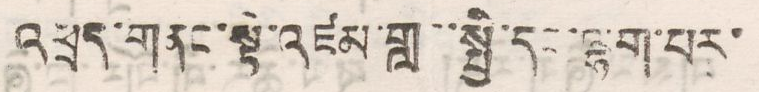འཕྲད་གནང་སྟེ་འཛམ་གླང་སྤྱི་དང་ལྷག་པར་
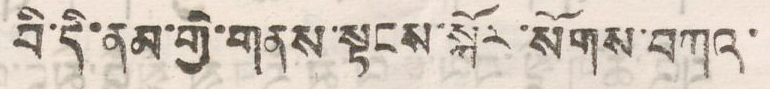བི་དི་ནམ་གྱི་གནས་སྟངས་སྐོར་སོགས་བཀའ་
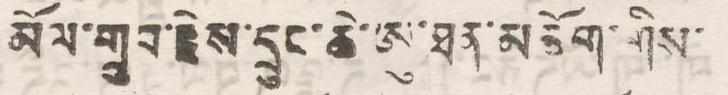མོལ་གྲུབ་རྗེས་དྲུང་ཆེ་ཨུ་ཐན་མཆོག་གིས་
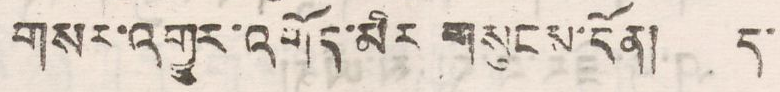གསར་འགྱུར་འགོད་མིར་གསུངས་དོན།   ད་
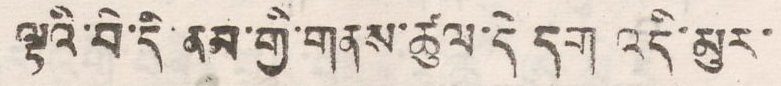ལྟའི་བི་དི་ནམ་གྱི་གནས་ཚུལ་དེ་དག འདི་མུར་
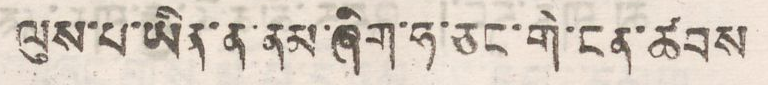ལུས་པ་ཡིན་ན་ནམ་ཞིག་ཧ་ཅང་གི་ངན་ཚབས
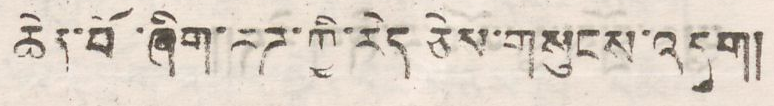ཆེན་པོ་ཞིག་རཌ་ཀྱི་རེད ཅེས་གསུངས་འདུག།
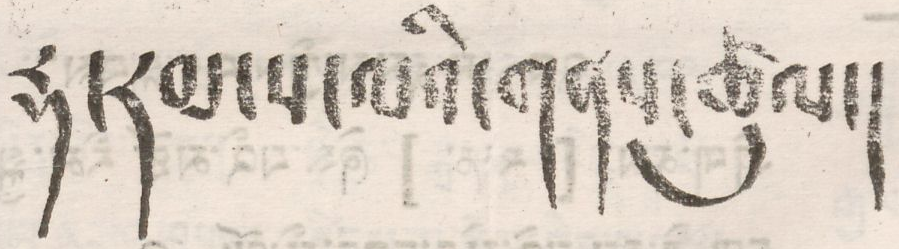རྡ་རམ་ས་ལའི་གནས་ཚུལ།
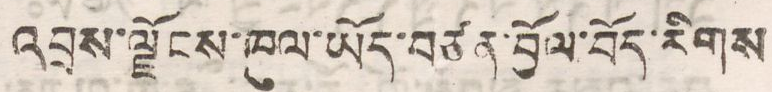འབྲས་ལྗོངས་ཁུལ་ཡོད་བཙན་བྱོལ་བོད་རིགས
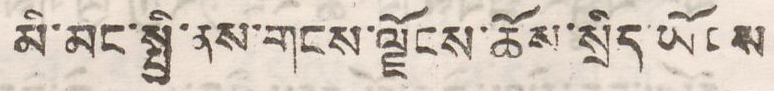མི་མང་སྤྱི་ནས་གངས་ལྗོངས་ཆོས་སྲིད་ཡོངས
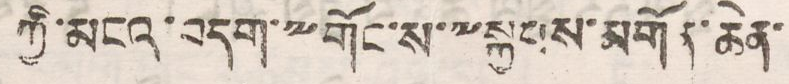ཀྱི་མངའ་བདག་༸གོང་ས་༸སྐྱབས་མགོན་ཆེན་
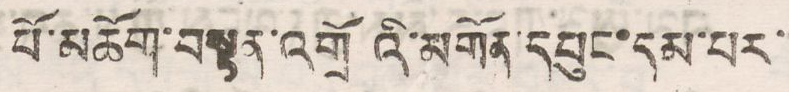པོ་མཆོག་བསྟན་འགྲོའི་མགོན་དཔུང་དམ་པར་
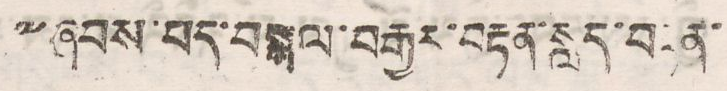༸ཞབས་པད་བསྒལ་བརྒྱར་བརྟན་སླད་བརྟན་
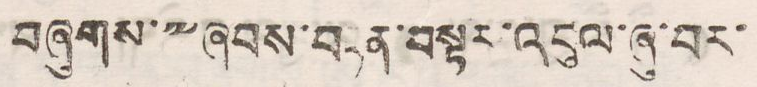བཞུགས་༸ཞབས་བརྟན་བསྟར་འབུལ་ཞུ་བར་
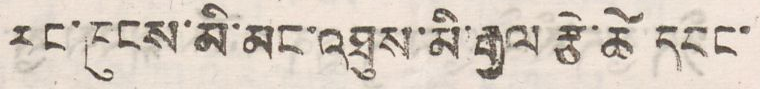རང་ཁུངས་མི་མང་འཐུས་མི་རྒྱལ་རྩེ་ཚེ དབང་
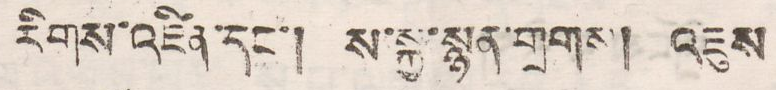རིགས་འཛིན་དང་། ས་སྐྱ་སྙན་གྲགས། འཇུས
